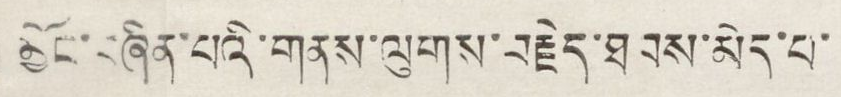མྱོང་བཞིན་པའི་གནས་ལུགས་བརྗེད་ཐབས་མེད་པ་
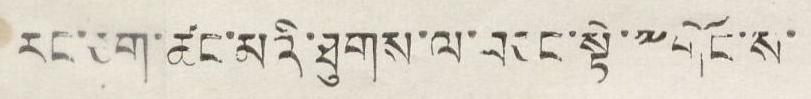རང་ཅག་ཚང་མའི་ཐུགས་ལ་བཅང་སྟེ་༸གོང་ས་
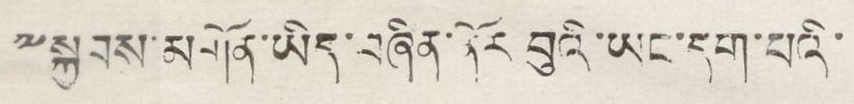༸སྐྱབས་མགོན་ཡིད་བཞིན་ནོར་བུའི་ཡང་དག་པའི་
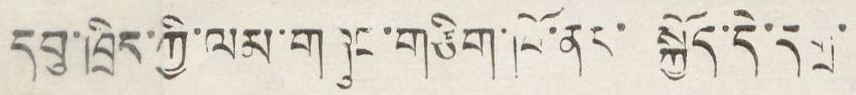དབུ་ཁྲིད་ཀྱི་ལམ་གཞུང་གཅིག་ཁོ་ནར་སྐྱོད་དེ་དགྲ་
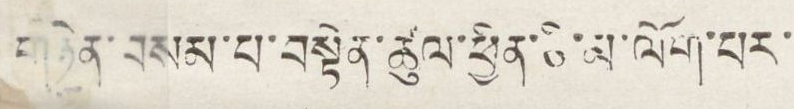གཉེན་བསམ་པ་བསྟེན་ཚུལ་ཕྱིན་ཅི་མ་ལོག་པར་
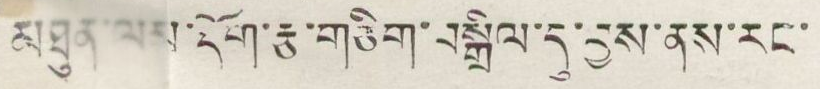མཐུན་ལམ་རྡོག་རྩ་གཅིག་བསྒྲིལ་དུ་བྱས་ནས་རང་
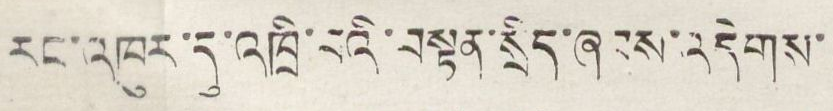རང་འཁུར་དུ་འཁྲི་བའི་བསྟན་སྲིད་ཞབས་འདེགས་
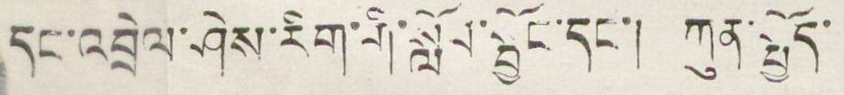དང་འབྲེལ་ཤེས་རིག་གི་སློབ་སྦྱོང་དང་། ཀུན་སྤྱོད་
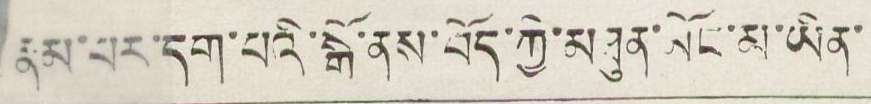རྣམ་པར་དག་པའི་སྒོ་ནས་བོད་ཀྱི་མཐུན་མོང་མ་ཡིན་
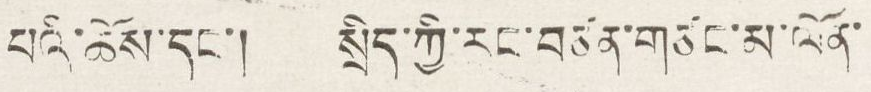པའི་ཆོས་དང་། སྲིད་ཀྱི་རང་བཙན་གཙང་མ་ལོན་
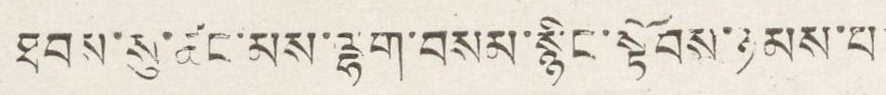ཐབས་སུ་ཚང་མས་ལྷག་བསམ་སྙིང་སྟོབས་ཉམས་པ
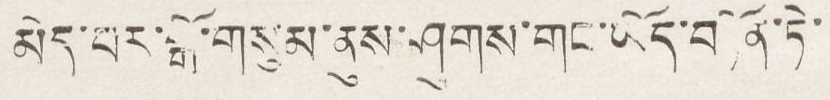མེད་པར་སྒོ་གསུམ་ནུས་ཤུགས་གང་ཡོད་བཏོན་དེ་
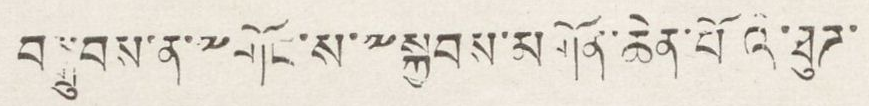བསྒྲུགས་ན་༸གོང་ས་༸སྐྱབས་མགོན་ཆེན་པོའི་ཐུཊ་
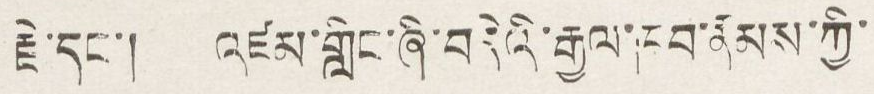རྗེ་དང་། འཛམ་གླིང་ཞི་བདེའི་རྒྱལ་ཁབ་རྣམས་ཀྱི་
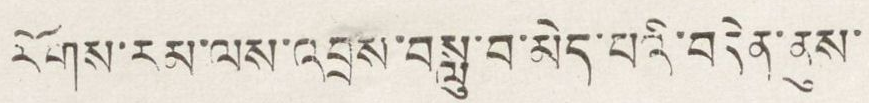རོགས་རམ་ལས་འབྲས་བསླུ་བ་མེད་པའི་བདེན་ནུས་
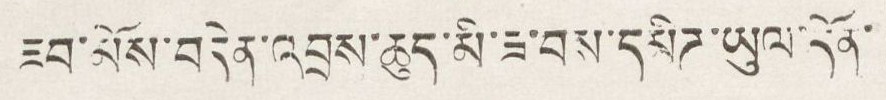ཟབ་མོས་བདེན་འབྲས་ཆུད་མི་ཟ་བས་དམིཊ་ཡུལ་དོན་
